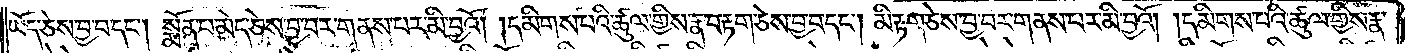ཡོད་ཅེས་བྱ་བ་དང༌། སྨོན་པ་མེད་ཅེས་བྱ་བར་གནས་པར་མི་བྱའོ། །དམིགས་པའི་ཚུལ་གྱིས་རྣ་བ་རྟག་ཅེས་བྱ་བ་དང༌། མི་རྟག་ཅེས་བྱ་བར་གནས་པར་མི་བྱའོ། །དམིགས་པའི་ཚུལ་གྱིས་རྣ་
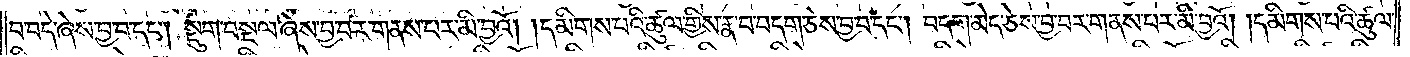བ་བདེ་ཞེས་བྱ་བ་དང༌། སྡུག་བསྔལ་ཞེས་བྱ་བར་གནས་པར་མི་བྱའོ། །དམིགས་པའི་ཚུལ་གྱིས་རྣ་བ་བདག་ཅེས་བྱ་བ་དང༌། བདག་མེད་ཅེས་བྱ་བར་གནས་པར་མི་བྱའོ། །དམིགས་པའི་ཚུལ་
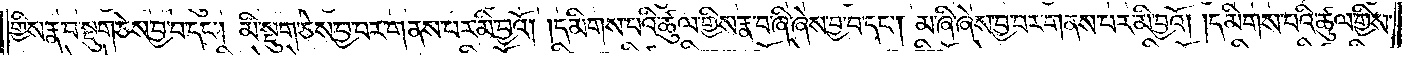གྱིས་རྣ་བ་སྡུག་ཅེས་བྱ་བ་དང༌། མི་སྡུག་ཅེས་བྱ་བར་གནས་པར་མི་བྱའོ། །དམིགས་པའི་ཚུལ་གྱིས་རྣ་བ་ཞི་ཞེས་བྱ་བ་དང༌། མ་ཞི་ཞེས་བྱ་བར་གནས་པར་མི་བྱའོ། །དམིགས་པའི་ཚུལ་གྱིས་
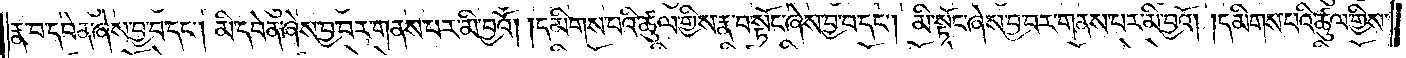རྣ་བ་དབེན་ཞེས་བྱ་བ་དང༌། མི་དབེན་ཞེས་བྱ་བར་གནས་པར་མི་བྱའོ། །དམིགས་པའི་ཚུལ་གྱིས་རྣ་བ་སྟོང་ཞེས་བྱ་བ་དང༌། མི་སྟོང་ཞེས་བྱ་བར་གནས་པར་མི་བྱའོ། །དམིགས་པའི་ཚུལ་གྱིས་
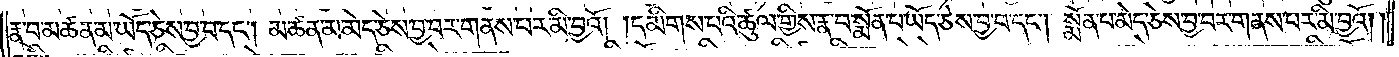རྣ་བ་མཚན་མ་ཡོད་ཅེས་བྱ་བ་དང༌། མཚན་མ་མེད་ཅེས་བྱ་བར་གནས་པར་མི་བྱའོ། །དམིགས་པའི་ཚུལ་གྱིས་རྣ་བ་སྨོན་པ་ཡོད་ཅེས་བྱ་བ་དང༌། །སྨོན་པ་མེད་ཅེས་བྱ་བར་གནས་པར་མི་བྱའོ། །
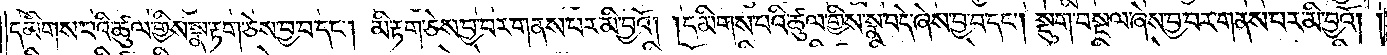དམིགས་པའི་ཚུལ་གྱིས་སྣ་རྟག་ཅེས་བྱ་བ་དང༌། མི་རྟག་ཅེས་བྱ་བར་གནས་པར་མི་བྱའོ། །དམིགས་པའི་ཚུལ་གྱིས་སྣ་བདེ་ཞེས་བྱ་བ་དང༌། སྡུག་བསྔལ་ཞེས་བྱ་བར་གནས་པར་མི་བྱའོ། །
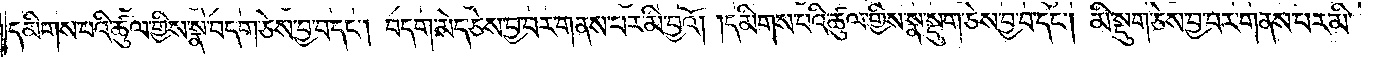དམིགས་པའི་ཚུལ་གྱིས་སྣ་བདག་ཅེས་བྱ་བ་དང༌། བདག་མེད་ཅེས་བྱ་བར་གནས་པར་མི་བྱའོ། །དམིགས་པའི་ཚུལ་གྱིས་སྣ་སྡུག་ཅེས་བྱ་བ་དང༌། མི་སྡུག་ཅེས་བྱ་བར་གནས་པར་མི་
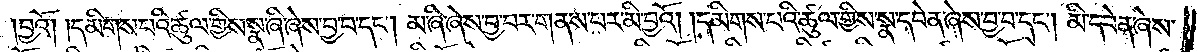བྱའོ། །དམིགས་པའི་ཚུལ་གྱིས་སྣ་ཞི་ཞེས་བྱ་བ་དང༌། མ་ཞི་ཞེས་བྱ་བར་གནས་པར་མི་བྱའོ། །དམིགས་པའི་ཚུལ་གྱིས་སྣ་དབེན་ཞེས་བྱ་བ་དང༌། མི་དབེན་ཞེས་
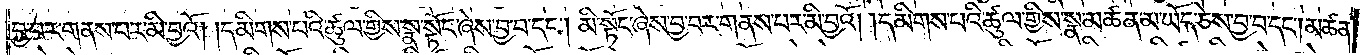བྱ་བར་གནས་པར་མི་བྱའོ། །དམིགས་པའི་ཚུལ་གྱིས་སྣ་སྟོང་ཞེས་བྱ་བ་དང༌། མི་སྟོང་ཞེས་བྱ་བར་གནས་པར་མི་བྱའོ། །དམིགས་པའི་ཚུལ་གྱིས་སྣ་མཚན་མ་ཡོད་ཅེས་བྱ་བ་དང༌། མཚན་
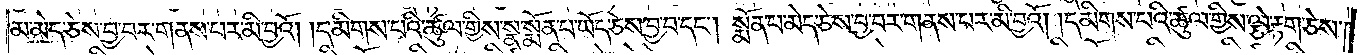མ་མེད་ཅེས་བྱ་བར་གནས་པར་མི་བྱའོ། །དམིགས་པའི་ཚུལ་གྱིས་སྣ་སྨོན་པ་ཡོད་ཅེས་བྱ་བ་དང༌། སྨོན་པ་མེད་ཅེས་བྱ་བར་གནས་པར་མི་བྱའོ། །དམིགས་པའི་ཚུལ་གྱིས་ལྕེ་རྟག་ཅེས་
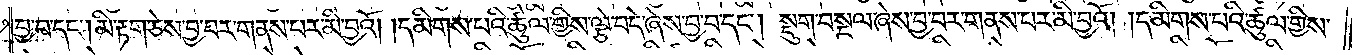བྱ་བ་དང༌། མི་རྟག་ཅེས་བྱ་བར་གནས་པར་མི་བྱའོ། །དམིགས་པའི་ཚུལ་གྱིས་ལྕེ་བདེ་ཞེས་བྱ་བ་དང༌། སྡུག་བསྔལ་ཞེས་བྱ་བར་གནས་པར་མི་བྱའོ། །དམིགས་པའི་ཚུལ་གྱིས་
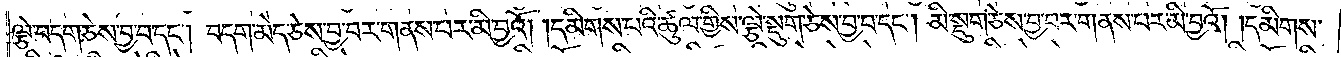ལྕེ་བདག་ཅེས་བྱ་བ་དང༌། བདག་མེད་ཅེས་བྱ་བར་གནས་པར་མི་བྱའོ། །དམིགས་པའི་ཚུལ་གྱིས་ལྕེ་སྡུག་ཅེས་བྱ་བ་དང༌། མི་སྡུག་ཅེས་བྱ་བར་གནས་པར་མི་བྱའོ། །དམིགས་
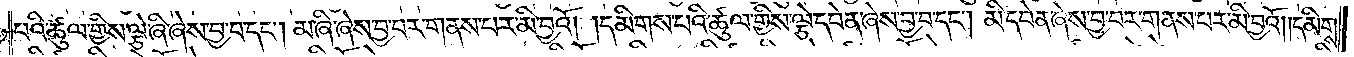པའི་ཚུལ་གྱིས་ལྕེ་ཞི་ཞེས་བྱ་བ་དང༌། མ་ཞི་ཞེས་བྱ་བར་གནས་པར་མི་བྱའོ། །དམིགས་པའི་ཚུལ་གྱིས་ལྕེ་དབེན་ཞེས་བྱ་བ་དང༌། མི་དབེན་ཞེས་བྱ་བར་གནས་པར་མི་བྱའོ། །དམིགས་
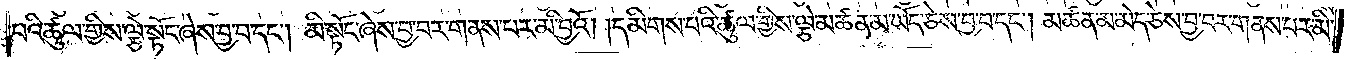པའི་ཚུལ་གྱིས་ལྕེ་སྟོང་ཞེས་བྱ་བ་དང༌། མི་སྟོང་ཞེས་བྱ་བར་གནས་པར་མི་བྱའོ། །དམིགས་པའི་ཚུལ་གྱིས་ལྕེ་མཚན་མ་ཡོད་ཅེས་བྱ་བ་དང༌། མཚན་མ་མེད་ཅེས་བྱ་བར་གནས་པར་མི་
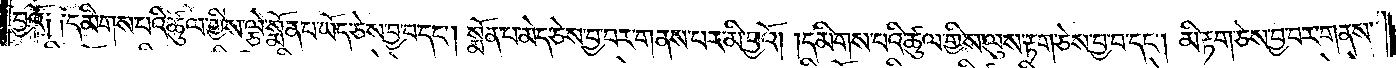བྱའོ༏ ༏དམིགས་པའི་ཚུལ་གྱིས་ལྕེ་སྨོན་པ་ཡོད་ཅེས་བྱ་བ་དང༌། སྨོན་པ་མེད་ཅེས་བྱ་བར་གནས་པར་མི་བྱའོ། །དམིགས་པའི་ཚུལ་གྱིས་ལུས་རྟག་ཅེས་བྱ་བ་དང༌། མི་རྟག་ཅེས་བྱ་བར་གནས་
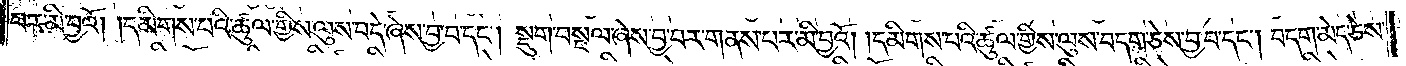པར་མི་བྱའོ། །དམིགས་པའི་ཚུལ་གྱིས་ལུས་བདེ་ཞེས་བྱ་བ་དང༌། སྡུག་བསྔལ་ཞེས་བྱ་བར་གནས་པར་མི་བྱའོ། །དམིགས་པའི་ཚུལ་གྱིས་ལུས་བདག་ཅེས་བྱ་བ་དང༌། བདག་མེད་ཅེས་
